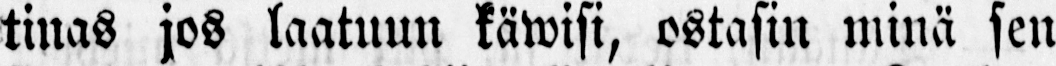tinas jos laatuun käwisi, ostasin minä sen
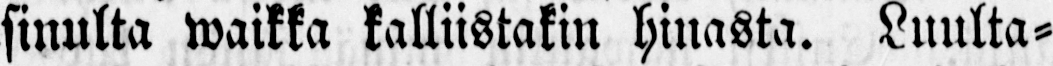sinulta waikka kalliistakin hinasta. Luulta-
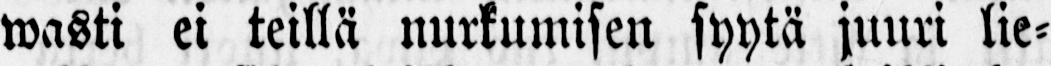wasti ei teillä nurkumisen syytä juuri lie-
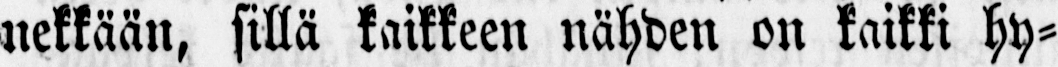nekkään, sillä kaikkeen nähden on kaikki hy-
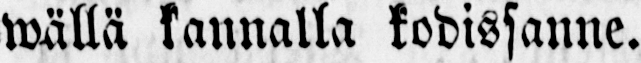wällä kannalla kodissanne.
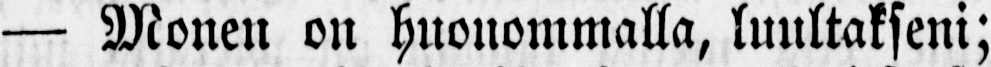— Monen on huonommalla, luultakseni;
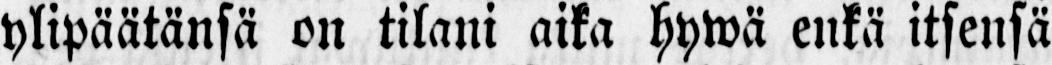ylipäätänsä on tilani aika hywä enkä itsensä
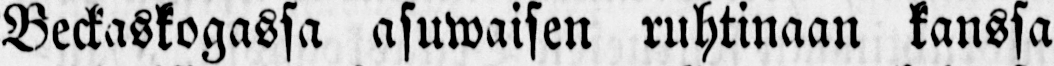Beckaskogassa asuwaisen ruhtinaan kanssa
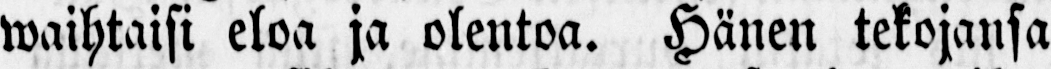waihtaisi eloa ja olentoa. Hänen tekojansa
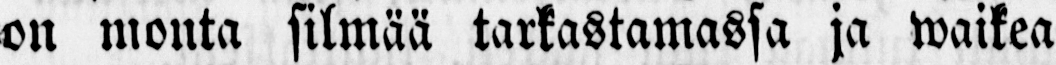on monta silmää tarkastamassa ja waikea
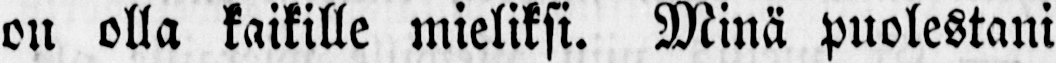on olla kaikille mieliksi. Minä puolestani
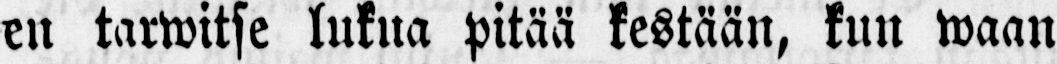en tarwitse lukua pitää kestään, kun waan
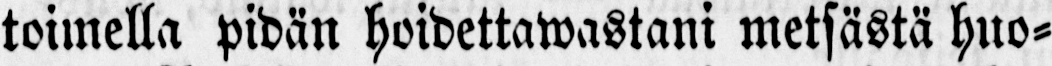toimella pidän hoidettawastani metsästä huo-
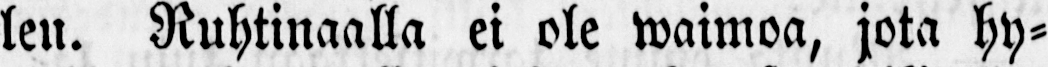len. Ruhtinaalla ei ole waimoa, jota hy-
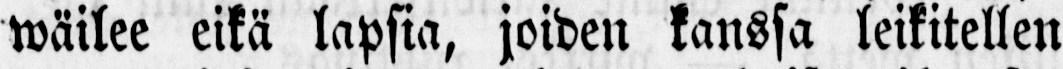wäilee eikä lapsia, joiden kanssa leikitellen
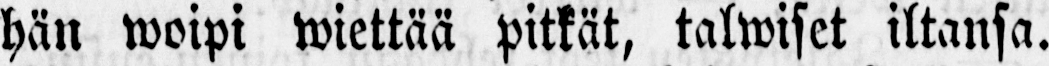hän woipi wiettää pitkät, talwiset iltansa.
